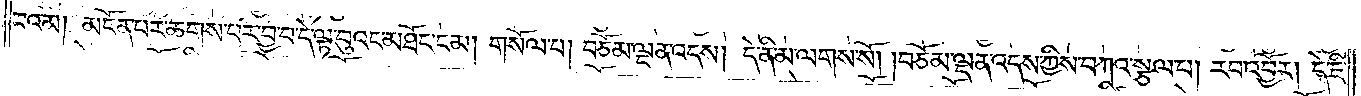བའམ། མངོན་པར་ཆགས་པར་བྱ་བ་དེ་ལྟ་བུའང་མཐོང་ངམ། གསོལ་པ། བཅོམ་ལྡན་འདས། དེ་ནི་མ་ལགས་སོ། །བཅོམ་ལྡན་འདས་ཀྱིས་བཀའ་སྩལ་པ། རབ་འབྱོར། དེ་ཇི་
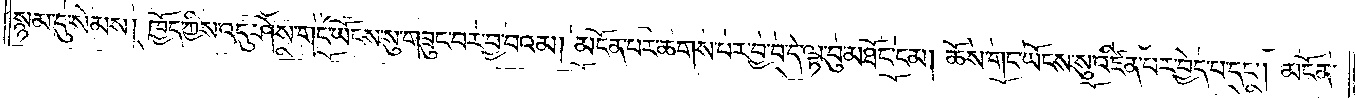སྙམ་དུ་སེམས། ཁྱོད་ཀྱི་འདུ་ཤེས་གང་ཡོངས་སུ་གཟུང་བར་བྱ་བའམ། མངོན་པར་ཆགས་པར་བྱ་བ་དེ་ལྟ་བུ་མཐོང་ངམ། ཆོས་གང་ཡོངས་སུ་འཛིན་པར་བྱེད་པ་དང༌། མངོན་
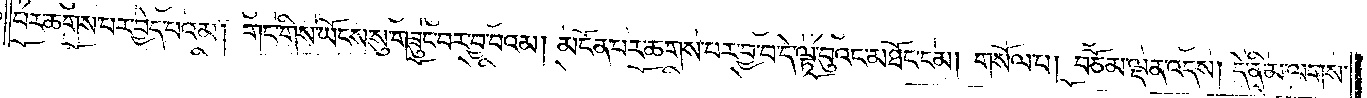པར་ཆགས་པར་བྱེད་པའམ། གང་གིས་ཡོངས་སུ་གཟུང་བར་བྱ་བ་འམ། མངོན་པར་ཆགས་པར་བྱ་བ་དེ་ལྟ་བུའང་མཐོང་ངམ། གསོལ་པ། བཅོམ་ལྡན་འདས། དེ་ནི་མ་ལགས་
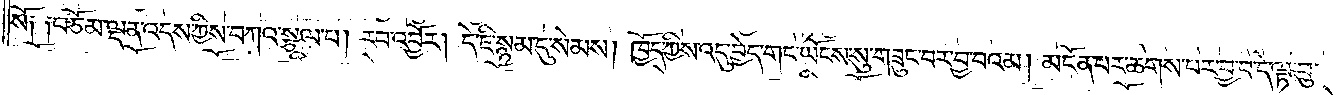སོ༑ ༑བཅོམ་ལྡན་འདས་ཀྱིས་བཀའ་སྩལ་པ། རབ་འབྱོར། དེ་ཇི་སྙམ་དུ་སེམས། ཁྱོད་ཀྱིས་འདུ་བྱེད་གང་ཡོངས་སུ་གཟུང་བར་བྱ་བའམ། མངོན་པར་ཆགས་པར་བྱ་བ་དེ་ལྟ་བུ་
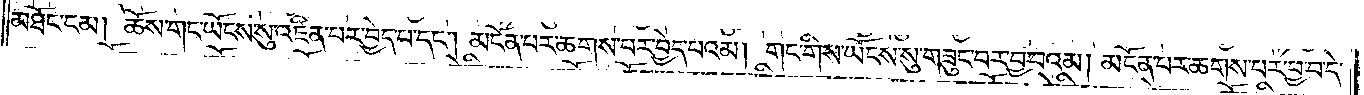མཐོང་ངམ། ཆོས་གང་ཡོངས་སུ་འཛིན་པར་བྱེད་པ་དང༌། མངོན་པར་ཆགས་པར་བྱེད་པའམ། གང་གིས་ཡོངས་སུ་གཟུང་བར་བྱ་བའམ། མངོན་པར་ཆགས་པར་བྱ་བ་དེ་
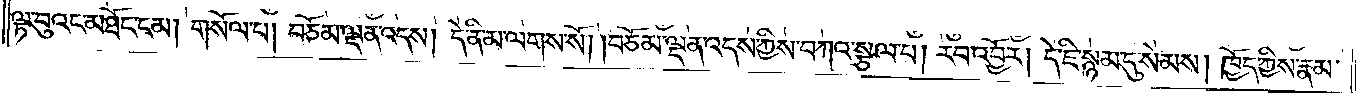ལྟ་བུའང་མཐོང་ངམ། །གསོལ་པ། བཅོམ་ལྡན་འདས། དེ་ནི་མ་ལགས་སོ། །བཅོམ་ལྡན་འདས་ཀྱིས་བཀའ་སྩལ་པ། རབ་འབྱོར། དེ་ཇི་སྙམ་དུ་སེམས། ཁྱོད་ཀྱིས་རྣམ་
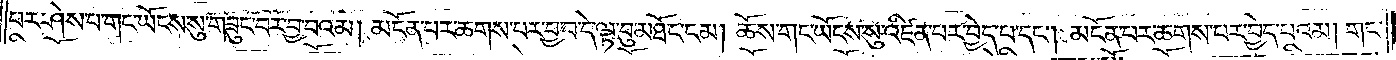པར་ཤེས་པ་གང་ཡོངས་སུ་གཟུང་བར་བྱ་བའམ། མངོན་པར་ཆགས་པར་བྱ་བ་དེ་ལྟ་བུ་མཐོང་ངམ། ཆོས་གང་ཡོངས་སུ་འཛིན་པར་བྱེད་པ་དང༌། མངོན་པར་ཆགས་པར་བྱེད་པའམ། གང་
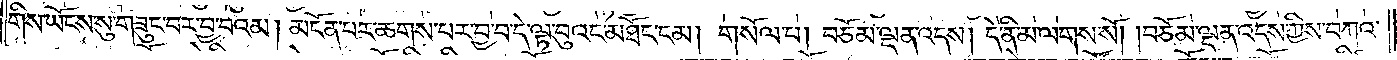གིས་ཡོངས་སུ་གཟུང་བར་བྱ་བའམ། མངོན་པར་ཆགས་པར་བྱ་བ་དེ་ལྟ་བུའང་མཐོང་ངམ། གསོལ་པ། བཅོམ་ལྡན་འདས། དེ་ནི་མ་ལགས་སོ། །བཅོམ་ལྡན་འདས་ཀྱིས་བཀའ་
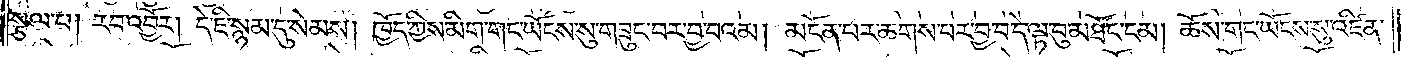སྩལ་པ། རབ་འབྱོར། དེ་ཇི་སྙམ་དུ་སེམས། ཁྱོད་ཀྱིས་མིག་གང་ཡོངས་སུ་གཟུང་བར་བྱ་བའམ། མངོན་པར་ཆགས་པར་བྱ་བ་དེ་ལྟ་བུ་མཐོང་ངམ། ཆོས་གང་ཡོངས་སུ་འཛིན་
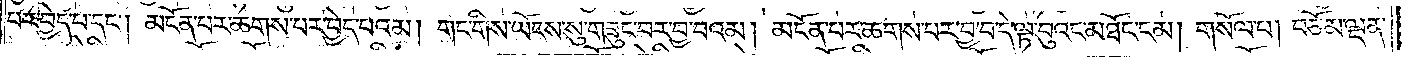པར་བྱེད་པ་དང༌། མངོན་པར་ཆགས་པར་བྱེད་པའམ། གང་གིས་ཡོངས་སུ་གཟུང་བར་བྱ་བའམ། མངོན་པར་ཆགས་པར་བྱ་བ་དེ་ལྟ་བུའང་མཐོང་ངམ། གསོལ་པ། བཅོམ་ལྡན་
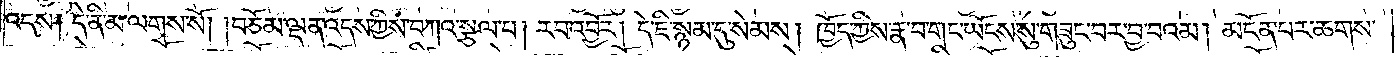འདས། དེ་ནི་མ་ལགས་སོ། །བཅོམ་ལྡན་འདས་ཀྱིས་བཀའ་སྩལ་པ། རབ་འབྱོར། དེ་ཇི་སྙམ་དུ་སེམས། ཁྱོད་ཀྱིས་རྣ་བ་གང་ཡོངས་སུ་གཟུང་བར་བྱ་བའམ། མངོན་པར་ཆགས་
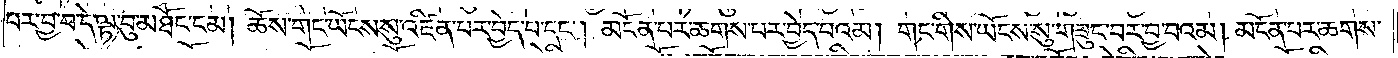པར་བྱ་བ་དེ་ལྟ་བུ་མཐོང་ངམ། ཆོས་གང་ཡོངས་སུ་འཛིན་པར་བྱེད་པ་དང༌། མངོན་པར་ཆགས་པར་བྱེད་པའམ། གང་གིས་ཡོངས་སུ་གཟུང་བར་བྱ་བའམ། མངོན་པར་ཆགས་
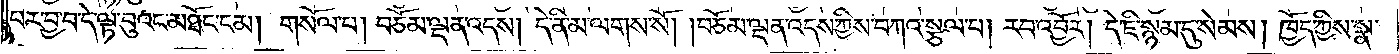པར་བྱ་བ་དེ་ལྟ་བུའང་མཐོང་ངམ། གསོལ་པ། བཅོམ་ལྡན་འདས། དེ་ནི་མ་ལགས་སོ། །བཅོམ་ལྡན་འདས་ཀྱིས་བཀའ་སྩལ་པ། རབ་འབྱོར། དེ་ཇི་སྙམ་དུ་སེམས། ཁྱོད་ཀྱིས་སྣ་
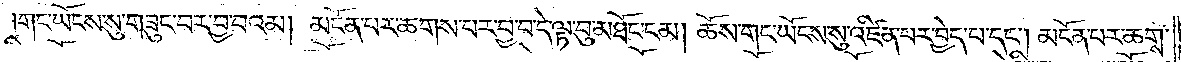གང་ཡོངས་སུ་གཟུང་བར་བྱ་བའམ། མངོན་པར་ཆགས་པར་བྱ་བ་དེ་ལྟ་བུ་མཐོང་ངམ། ཆོས་གང་ཡོངས་སུ་འཛིན་པར་བྱེད་པ་དང༌། མངོན་པར་ཆགས་
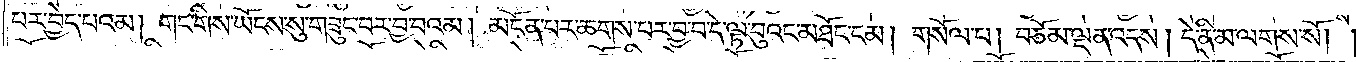པར་བྱེད་པའམ། གང་གིས་ཡོངས་སུ་གཟུང་བར་བྱ་བའམ། མངོན་པར་ཆགས་པར་བྱ་བ་དེ་ལྟ་བུའང་མཐོང་ངམ། གསོལ་པ། བཅོམ་ལྡན་འདས། དེ་ནི་མ་ལགས་སོ། །
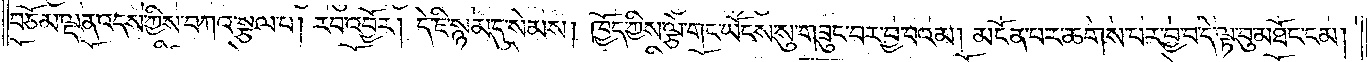བཅོམ་ལྡན་འདས་ཀྱིས་བཀའ་སྩལ་པ། རབ་འབྱོར། དེ་ཇི་སྙམ་དུ་སེམས། ཁྱོད་ཀྱིས་ལྕེ་གང་ཡོངས་སུ་གཟུང་བར་བྱ་བའམ། མངོན་པར་ཆགས་པར་བྱ་བ་དེ་ལྟ་བུ་མཐོང་ངམ།
